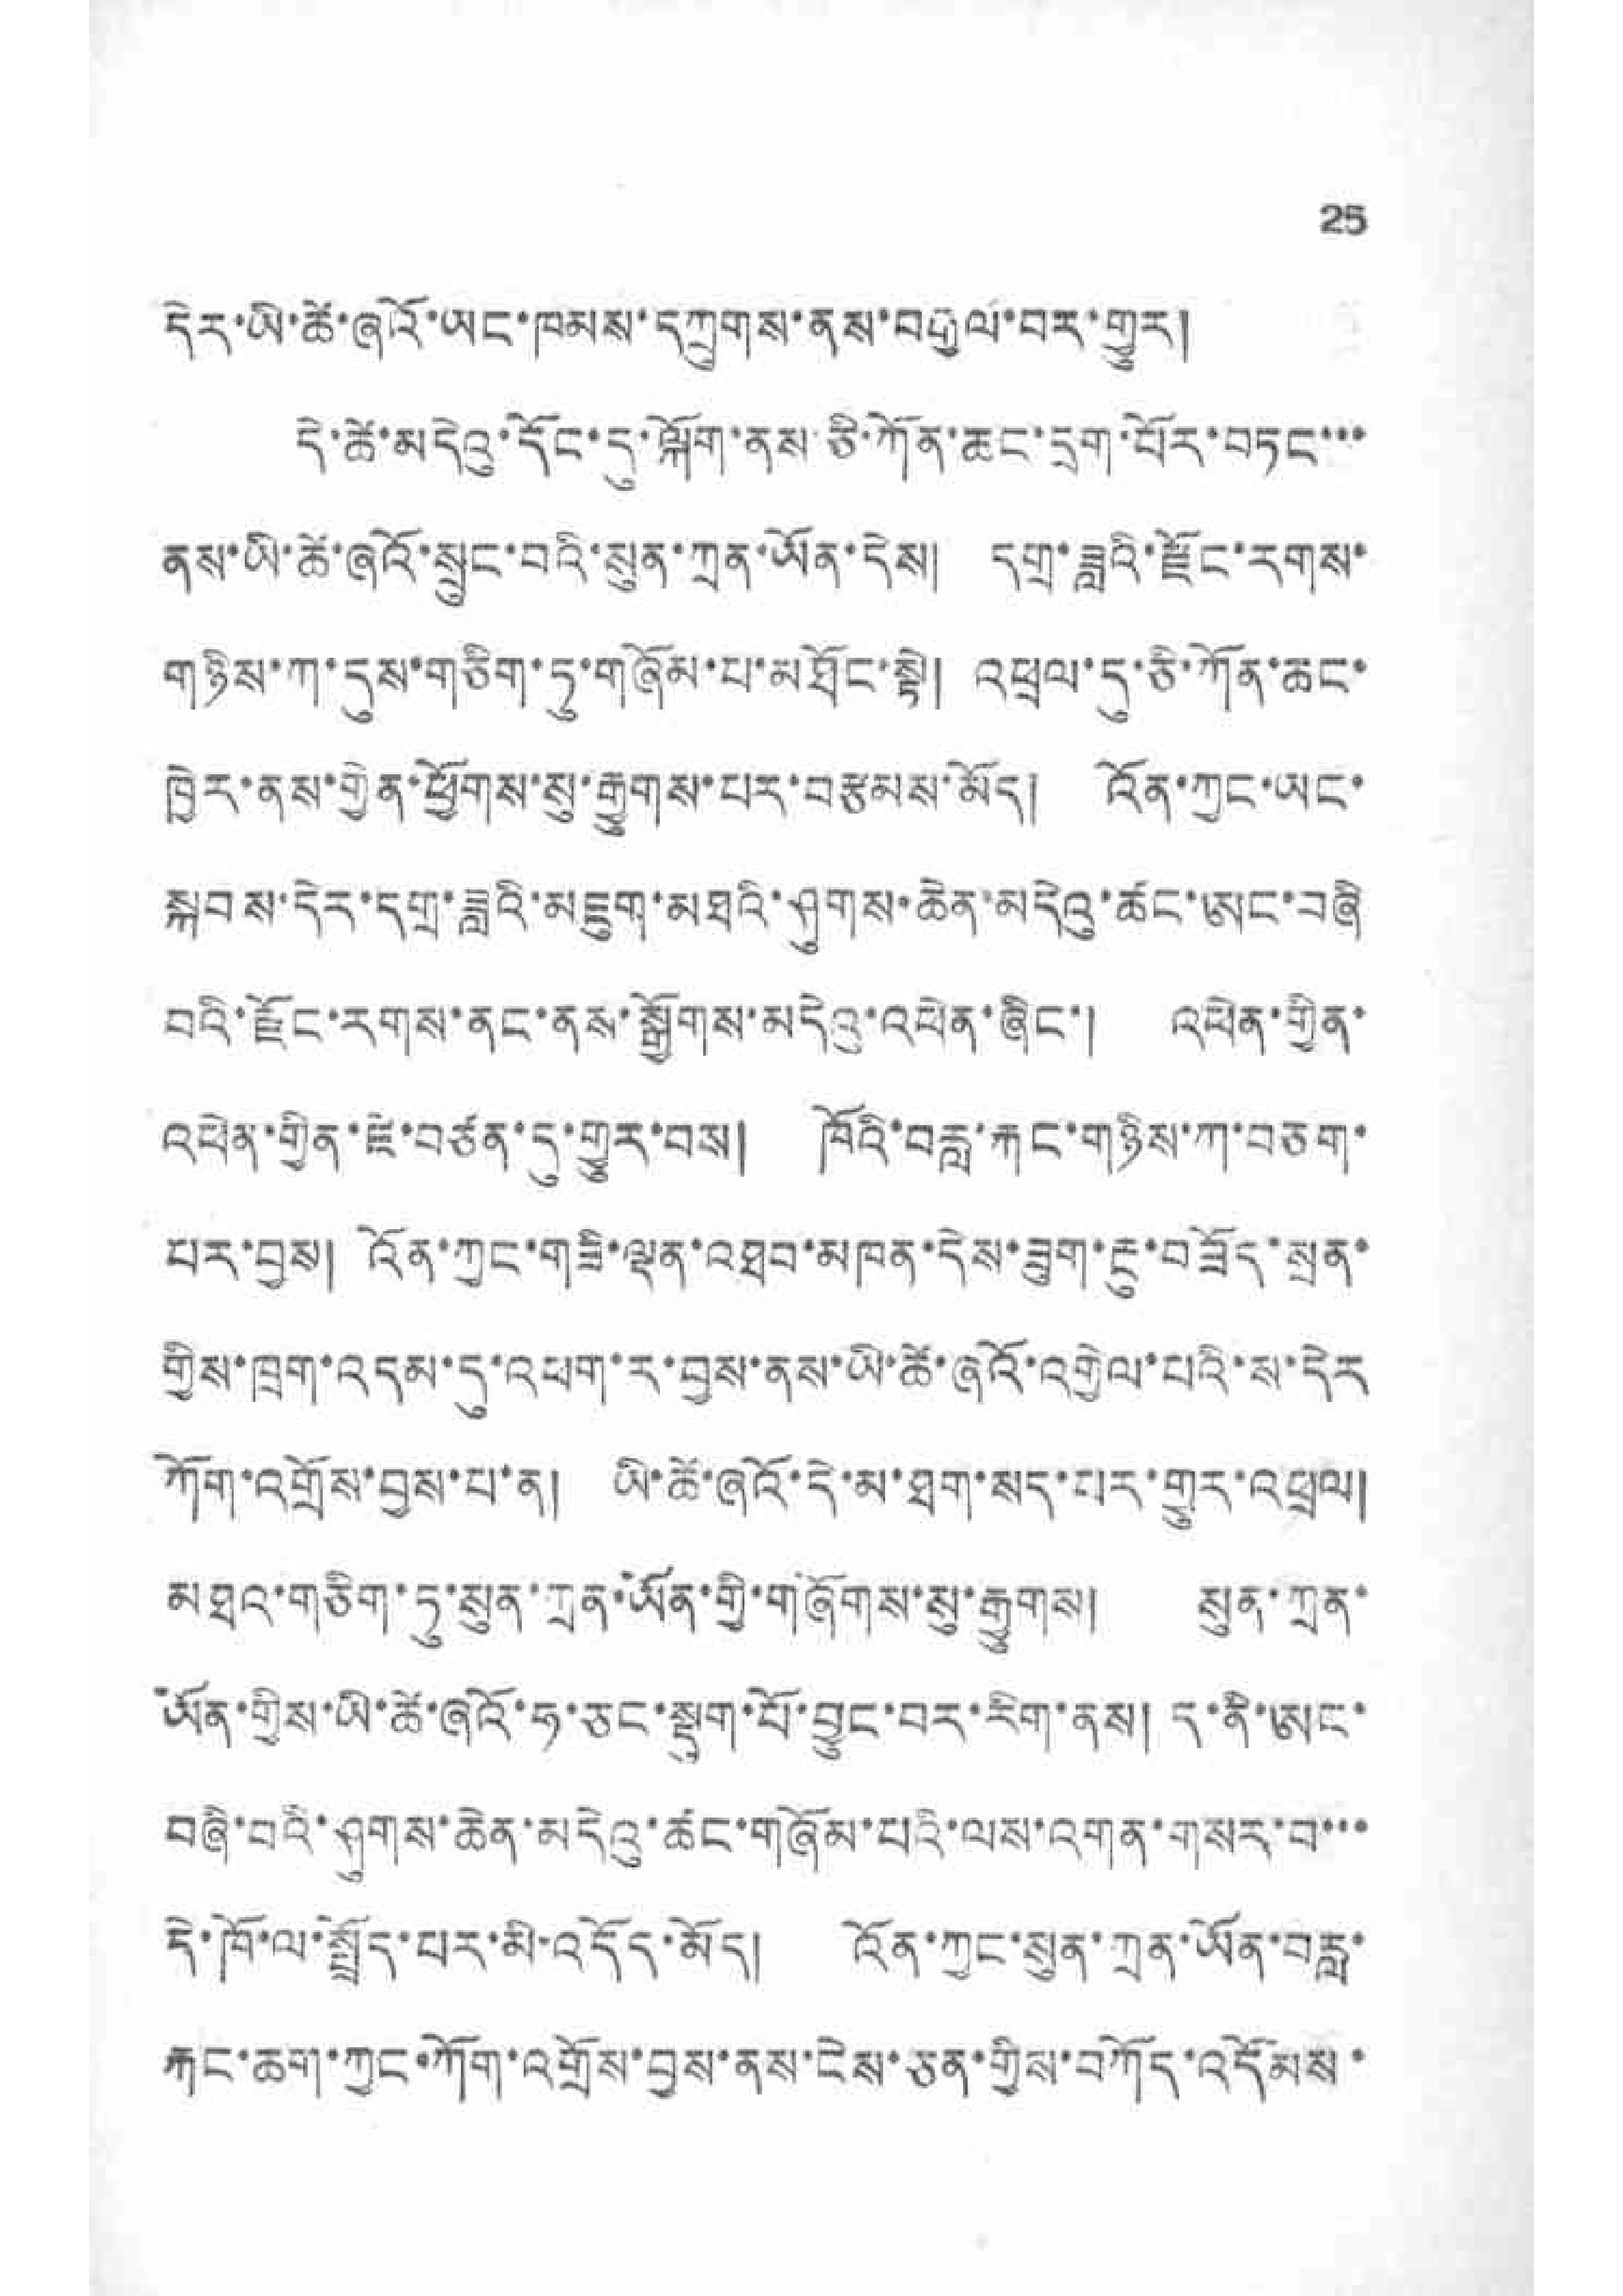25
དེར་ཡི་ཚེ་ཞའོ་ཡང་ཁམས་དཀྲུགས་ནས་བརྒྱལ་བར་གྱུར།
དེ་ཚེ་མདེའུ་དོང་དུ་ལྐོག་ནས་ཅི་ཀོན་ཆང་དྲག་པོར་བཏང་་་
ནས་ཡི་ཚེ་ཞའོ་སྲུང་བའི་སུན་ཀྲན་ཡོན་དེས། དགྲ་ཟླའི་རྫོང་རགས་
གཉིས་ཀ་དུས་གཅིག་ཏུ་གཞོམ་པ་མཐོང་སྟེ། འཕྲལ་དུ་ཅི་ཀོན་ཆང་
ཁྱེར་ནས་གྱེན་ཕྱོགས་སུ་རྒྱུགས་པར་བརྩམས་མོད། འོན་ཀྱང་ཡང་
སྐབས་དེར་དགྲ་ཟླའི་མཇུག་མཐའི་ཤུགས་ཆེན་མདེའུ་ཚང་ཨང་བཞི
བའི་རྫོང་རགས་ནང་ནས་སྒྱོགས་མདེའུ་འཕེན་ཞིང་། འཕེན་གྱིན་
འཕེན་གྱིན་ཇེ་བཙན་དུ་གྱུར་བས། ཁོའི་བརླ་རྐང་གཉིས་ཀ་བཅག་
པར་བྱས། འོན་ཀྱང་གཟི་ལྡན་འཐབ་མཁན་དེས་ཟུག་རྔུ་བཟོད་སྲན་
གྱིས་ཁྲག་འདམ་དུ་འཕག་ར་བྱས་ནས་ཡི་ཚེ་ཞའོ་འགྱེལ་པའི་ས་དེར
ཀོག་འགྲོས་བྱས་པ་ན། ཡི་ཚེ་ཞའོ་དེ་མ་ཐག་སད་པར་གྱུར་འཕྲལ།
མཐའ་གཅིག་ཏུ་སུན་ཀྲན་ཡོན་གྱི་གཞོགས་སུ་རྒྱུགས། སུན་ཀྲན་
ཡོན་གྱིས་ཡི་ཚེ་ཞའོ་ཧ་ཅང་སྡུག་པོ་བྱུང་བར་རིག་ནས། ད་ནི་ཨང་
བཞི་བའི་ཤུགས་ཆེན་མདེའུ་ཚང་གཞོམ་པའི་ལས་འགན་གསར་བ་་་
དེ་ཁོ་ལ་སྤྲོད་པར་མི་འདོད་མོད། འོན་ཀྱང་སུན་གྲན་ཡོན་བརླ་
རྐང་ཆག་ཀྱང་ཀོག་འགྲོས་བྱས་ནས་ངེས་ཅན་གྱིས་བཀོད་འདོམས་
